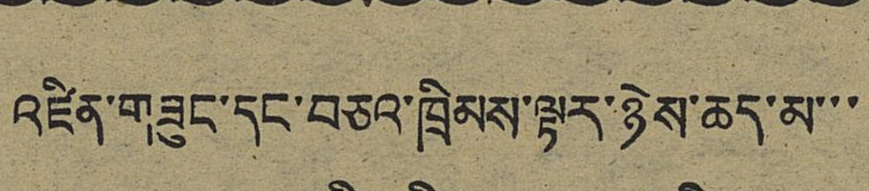འཛིན་གཟུང་དང་བཅའ་ཁྲིམས་ལྟར་ཉེས་ཆད་མ་་་
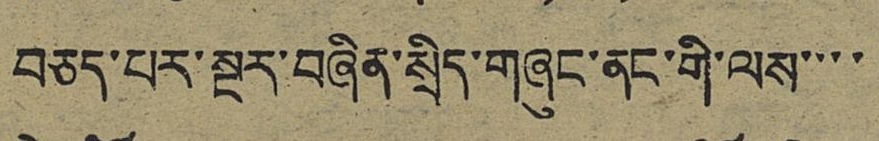བཅད་པར་སྔར་བཞིན་སྲིད་གཞུང་ནང་གི་ལས་་་་
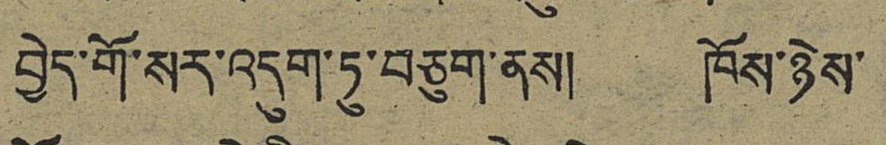བྱེད་གོ་སར་འདུག་ཏུ་བཅུག་ནས། ཁོས་ཉེས་
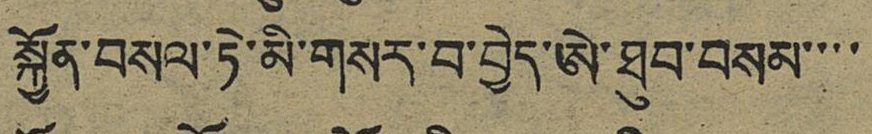སྐྱོན་བསལ་ཏེ་མི་གསར་བ་བྱེད་ཨེ་ཐུབ་བསམ་་་་
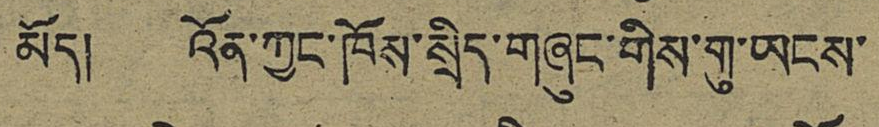མོད། འོན་ཀྱང་ཁོས་སྲིད་གཞུང་གིས་གུ་ཡངས་
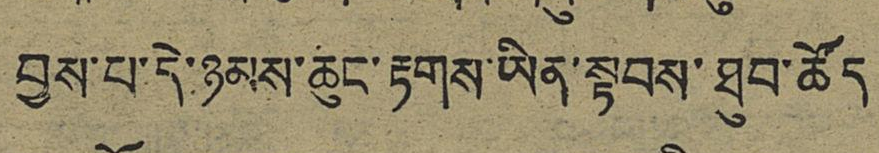བྱས་པ་དེ་ཉམས་ཆུང་རྟགས་ཡིན་སྟབས་ཐུབ་ཚོད
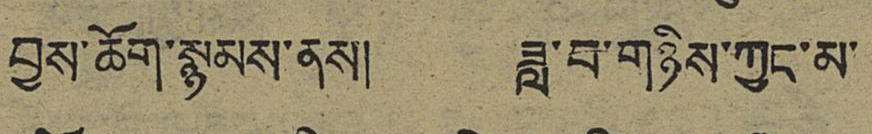བྱས་ཆོག་སྙམས་ནས། ཟླ་བ་གཉིས་ཀྱང་མ་
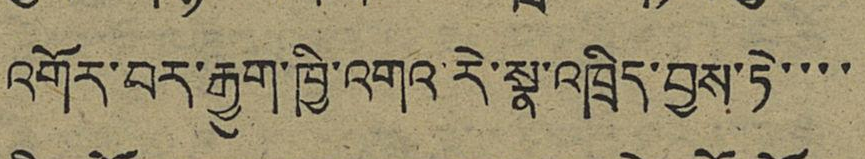འགོར་བར་རྒྱུག་ཁྱི་འགའ་རེ་སྣ་འཁྲིད་བྱས་ཏེ་་་་
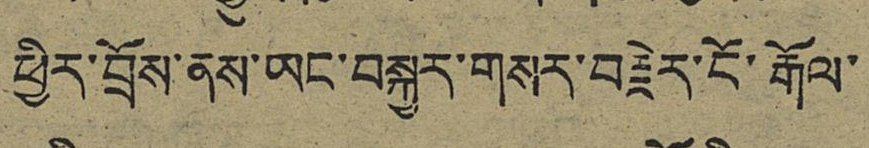ཕྱིར་བྲོས་ནས་ཡང་བསྐྱར་གསར་བརྗེར་ངོ་རྒོལ་
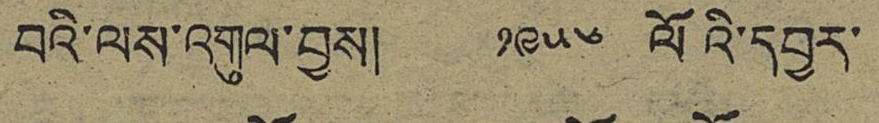བའི་ལས་འགུལ་བྱས། ༡༩༥༦ ལོའི་དབྱར་
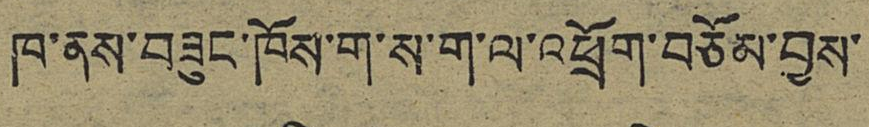ཁ་ནས་བཟུང་ཁོས་ག་ས་ག་ལ་འཕྲོག་བཅོམ་བྱས་
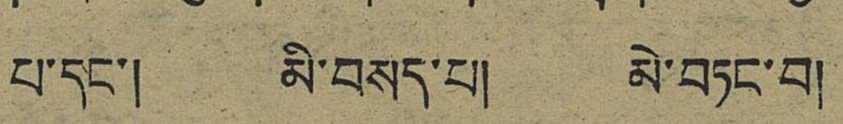པ་དང་། མི་བསད་པ། མེ་བཏང་བ།
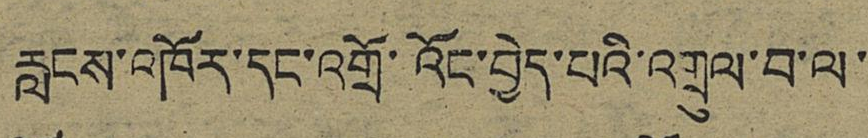རླངས་འཁོར་དང་འགྲོ་འོང་བྱེད་པའི་འགྲུལ་བ་ལ་
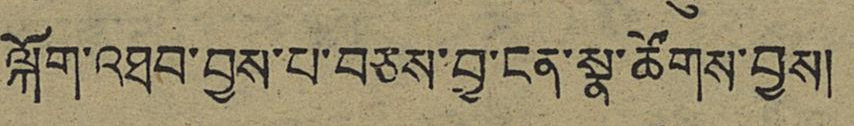ལྐོག་འཐབ་བྱས་པ་བཅས་བྱ་ངན་སྣ་ཚོགས་བྱས།
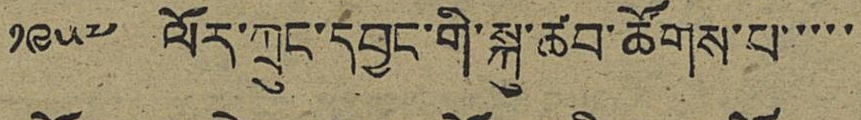༡༩༥༧ ལོར་ཀྲུང་དབྱང་གི་སྐུ་ཚབ་ཚོགས་པ་་་་་
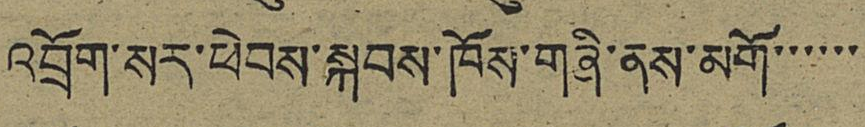འབྲོག་སར་ཕེབས་སྐབས་ཁོས་གཞི་ནས་མགོ་་་་་་
